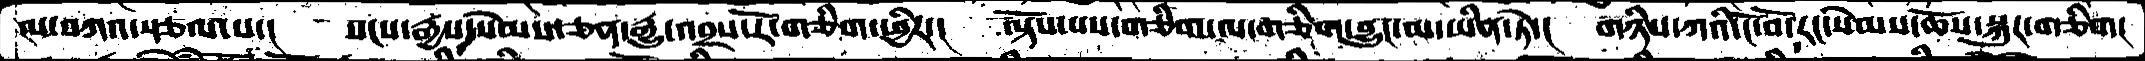ལ་བཀའ་རྩལ་པ་།  སངས་རྒྱས་སེམས་ཅན་རྒྱུ་འབྲས་རོ་གཅིག་ཕྱིར་།  ལྟོས་པས་གཅིག་ལ་གཅིག་བྱུང་མ་ཡིན་ཏེ་།  གཉིས་ཀའི་ངོ་བོ་རང་སེམས་ཆོས་སྐུར་གཅིག།
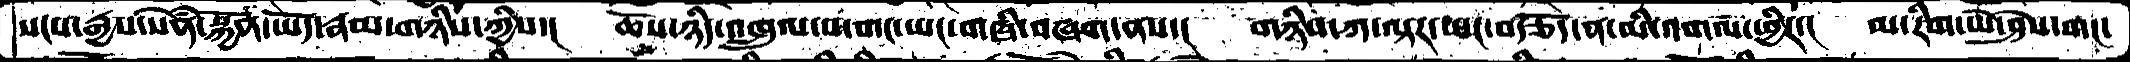སངས་རྒྱས་སེཾན་སྐྱོན་ཡོད་རྣམ་གཉིས་ཀྱིས་།  ཆོས་ཉིད་འཁྲུལ་པ་གང་ཡང་གཞི་བཞག་ནས་།  གཉིས་ཀ་ལྟར་ཡང་བརྩོད་ན་མི་འགལ་ཕྱིར་།  མ་རིག་ཡེ་ཤེས་གང་
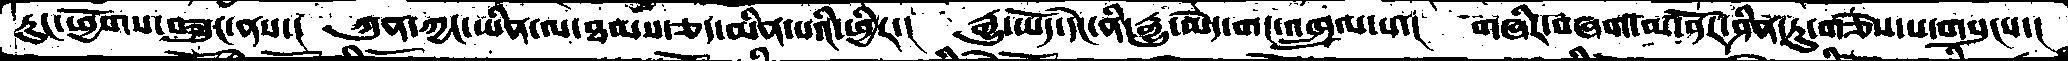རུང་ཕྱོགས་བཟུང་ནས་།  ཀུན་ཀྱང་ཡིན་ལ་ཐམས་ཅད་མིན་པའི་ཕྱིར་།  རྒྱུ་ཡོད་དེང་ནི་རྒྱུ་མེད་གང་འཁྲུལ་པ་།  གཞིར་བཞག་མ་ནོར་ཤིན་ཏུ་གཅེས་པ་གསུངས་།
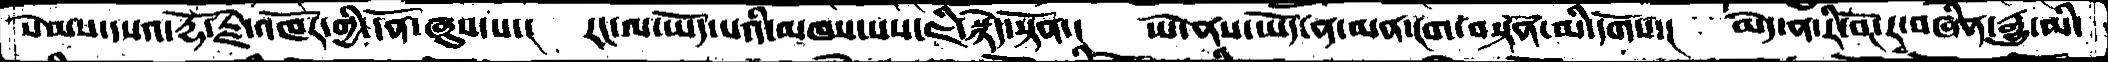སེམས་དཔའ་རྡོ་རྗེ་འཁོར་གྱི་དོན་ཞུས་པ་།   རང་ལ་ཡོད་པའི་མཁས་པས་ཇི་སྙེད་སྟོན་།  ཡེ་ནས་ཡོད་ན་མན་ངག་བསྟན་མི་དགོས་།  མེད་ན་རི་བོང་རྭ་བཞིན་རྒྱུ་མི་
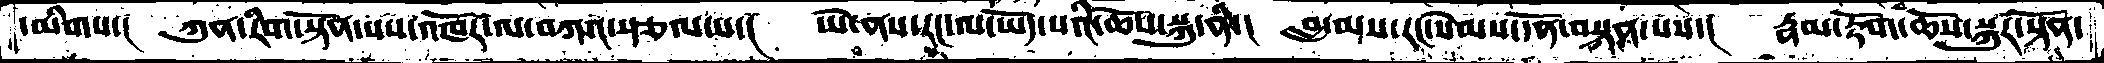དམིགས་།  ཀུན་རིག་སྟོན་པས་འཁོར་ལ་བཀའ་སྩལ་པ་།  ཡེ་ནས་རང་ལ་ཡོད་པའི་ཆོས་སྐུ་ནི་།  བླ་མས་རང་སེམས་དོན་བསྟན་པས་།  རྣམ་རྟོག་ཆོས་སྐུར་སྟོན་
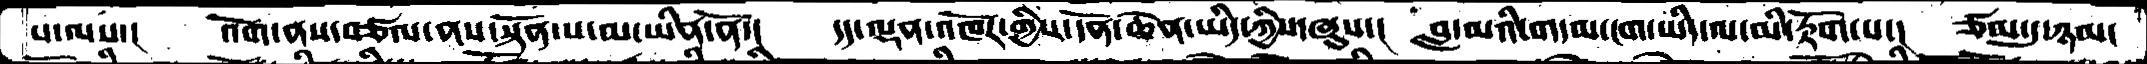པ་ལས་།   འོག་ནས་བཙལ་ནས་སྟོན་པ་མ་ཡིན་ནོ་།  དད་ལྡན་འཁོར་གྱིས་དོན་ཆེན་ཡིད་ཀྱིས་ཞུས་།  བླ་མའི་གདམ་ངག་ཡིད་ལ་མི་རྟོག་པ་།  ཙམ་དུ་ཉམ་
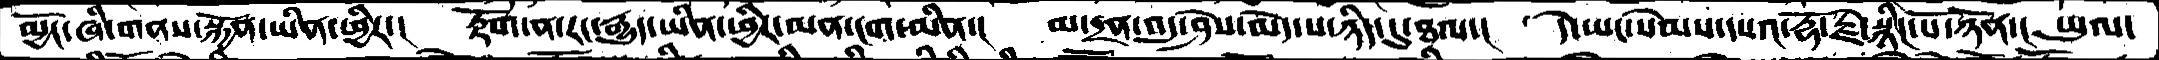མྱོང་ཞི་གནས་སྐྱོན་ཡིན་ཕྱིར་།  རྟོག་ན་རང་རྒྱུད་ཡིན་ཕྱིར་མན་ངག་མིན་།  མ་དྲན་འདུ་ཤེས་མེད་པ་ཉིད་དུ་ཐལ་།  དེ་ཡང་སེམས་དཔའ་རྡོ་རྗེ་སྙིང་པོ་ཉོན་། ཡུལ་
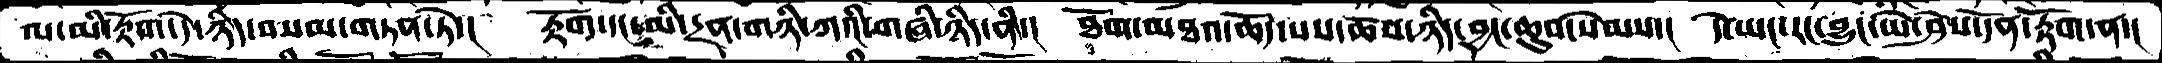ལ་མི་རྟོག་དེ་ཉིད་བསམ་གཏན་ཏེ་།   རྟོག་དང་མི་དྲན་གཉི་ཀའི་གཞི་ཉིད་ནི་།  ཐོག་མཐའ་ཆོད་པས་ཆོས་ཉིད་བྱང་ཆུབ་སེམས་།  དེ་ཡང་རང་བྱུང་ཡེ་ཤེས་དོན་རྟོག་ན་།
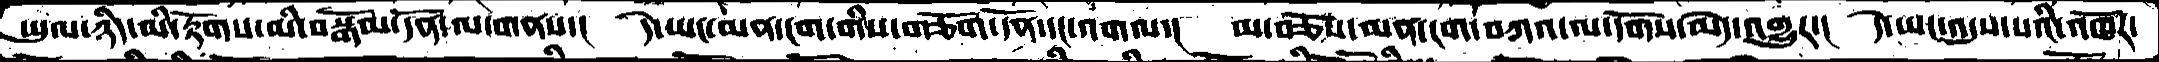ཡུལ་ཉིད་མི་རྟོགས་མི་བསྒོམ་དོན་ལ་གནས་།  དེ་ཡང་མན་ངག་གིས་གཅོག་དོན་དང་འགལ་།  མ་བཅོས་མན་ངག་བཀའ་ལ་དགོས་མེད་འགྱུར་།  དེ་ཡང་འདུས་པའི་འཁོར་
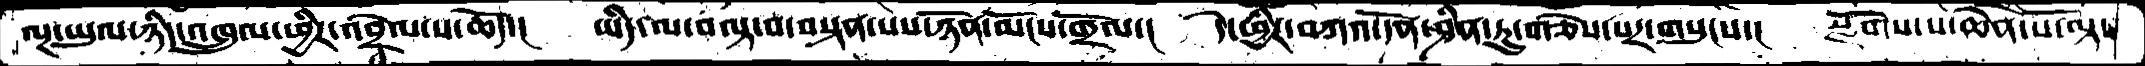ལྔ་ཡུལ་ཉིད་འཁྲུལ་ཕྱིར་འབྲེལ་པ་ཆོད་།  ཡིད་ལ་བལྟ་བ་བསྟན་པས་ཉོན་མོངས་གྲོལ་།  དེ་ཕྱིར་བཀའ་དོན་ཤིན་ཏུ་གཅེས་པར་གསུངས་།  སྫོགས་པ་ཆེན་པོ་ལྟ་
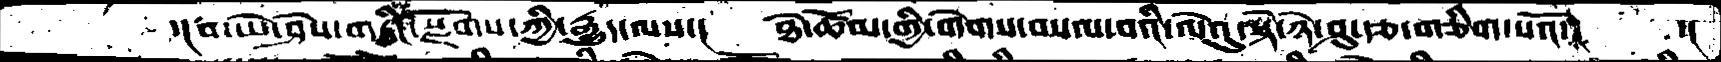་།བ་ཡེ་ཤེས་གཏིང་སྫོགས་ཀྱི་རྒྱུད་ལས་།  ཐེ་ཚོམ་གྱི་གེགས་བསལ་བའི་ལེའུ་སྟེ་ཉེ་ཤུ་རྩ་གཅིག་པའོ་།    ་།
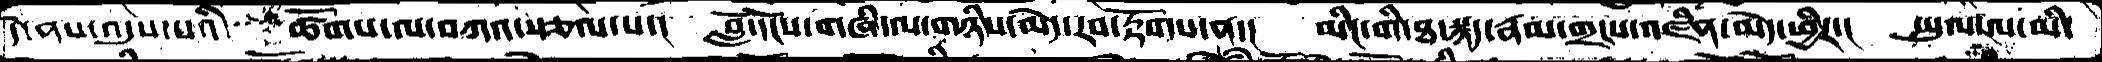དེ་ནས་འདུས་པའི་  ཚོགས་ལ་བཀའ་སྩལ་པ་།  བློ་དངོས་གཞི་ལ་གཉིས་མེད་རབ་རྟོགས་ན་།  མིང་གི་ཐ་སྙད་རྣམ་གྲངས་འཛིན་མེད་ཕྱིར་།  ཡུལ་ལ་མི་
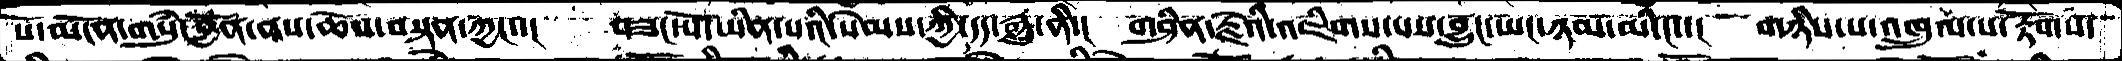སོ་མངོན་གསུཾ་བྱོན་ནས་ཆོས་བསྟན་ཀྱང་་།    བཟང་པོ་ཡིན་པའི་སེམས་ཀྱི་དད་རྒྱུ་ནི་།   གཤིན་རྗེའི་འཇིགས་པས་བྱུང་ཡང་ཉམ་མི་ང་་།   གཉིས་པ་འཁྲུལ་པ་རྟོགས་
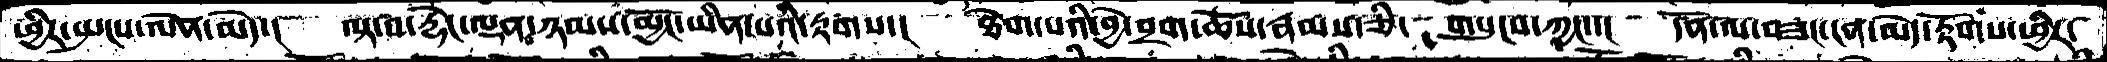ཕྱིར་སྤངས་ལེན་མེད་།   ལྟ་བ་རྡེང་ལྡན་ཉམས་མྱོང་ཡིན་པའི་རྟགས་།    ཐེག་པའི་བྱེ་བྲག་ཆོས་རྣམས་ཅི་  གསུངས་ཀྱང་་།   དོན་ལ་བཟང་ངན་མེད་རྟོགས་ཕྱིར་
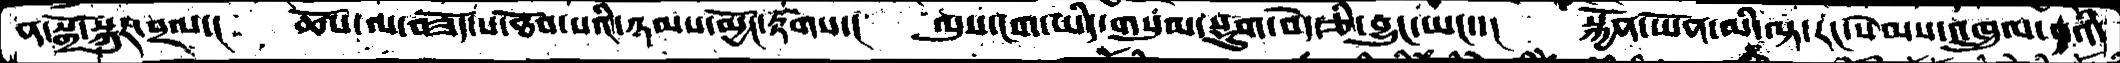ན་སྒྲོ་སྐུར་བྲལ་།   ཆོས་ལ་བཟོད་པ་ཐོབ་པའི་ཉམས་མྱོང་རྟགས་།   ལུས་ངག་ཡིིད་གསུམ་སྡུག་བདེ་ཅི་བྱུང་ཡང་་།    སྐྱོན་ཡོན་མི་ལྟ་རང་སེམས་འཁྲུལ་བའི་
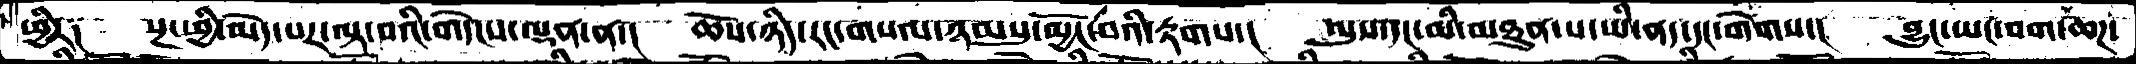ཕྱིར༑ སྔ་ཕྱི་མེད་པར་ལྟ་བའི་གདེངས་ལྡན་ན་། ཆོས་ཉིད་རང་གསལ་ཉམསུ་མྱོང་བའི་རྟགས་། ལུས་དང་མི་མཐུན་པ་ཡི་ནད་དང་གེགས་། བྱུང་ཡང་བག་ཆཌ་
